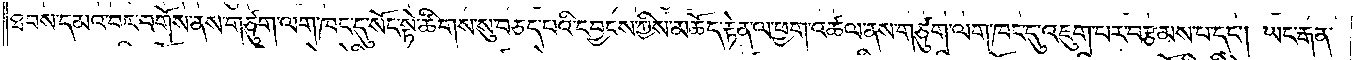ཐབས་དམའ་བར་བགོས་ནས་གཙུག་ལག་ཁང་དུ་སོང་སྟེ་ཚིགས་སུ་བཅད་པའི་དབྱངས་ཀྱིས་མཆོད་རྟེན་ལ་ཕྱག་འཚལ་ནས་གཙུག་ལག་ཁང་དུ་འཇུག་པར་བརྩམས་པ་དང༌། ཡང་རྒན་
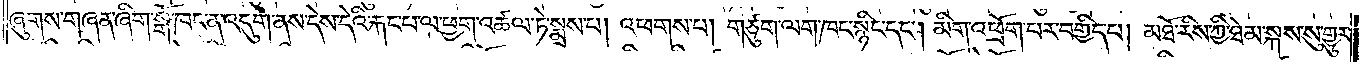ཞུགས་གཞན་ཞིག་སྒོ་ཁང་ན་འདུག་ནས་དེས་དེའི་རྐང་པ་ལ་ཕྱག་འཚལ་ཏེ་སྨྲས་པ། འཕགས་པ། གཙུག་ལག་ཁང་སྙིང་དང༌། མིག་འཕྲོག་པར་བགྱིད་པ། མཐོ་རིས་ཀྱི་ཐེམ་སྐས་སུ་གྱུར་
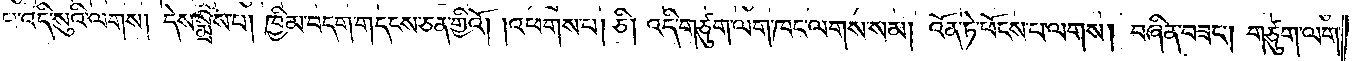པ་འདི་སུའི་ལགས། དེས་སྨྲས་པ། ཁྱིམ་བདག་གདངས་ཅན་གྱིའོ། །འཕགས་པ། ཅི། འདི་གཙུག་ལག་ཁང་ལགས་སམ། འོན་ཏེ་ཕོངས་པ་ལགས། བཞིན་བཟང༌། གཙུག་ལག་
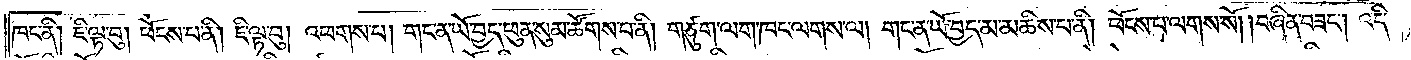ཁང་ནི། ཇི་ལྟ་བུ། ཕོངས་པ་ནི། ཇི་ལྟ་བུ། འཕགས་པ། གང་ན་ཡོ་བྱད་ཕུན་སུམ་ཚོགས་པ་ནི། གཙུག་ལག་ཁང་ལགས་ལ། གང་ན་ཡོ་བྱད་མ་མཆིས་པ་ནི། ཕོངས་པ་ལགས་སོ། །བཞིན་བཟང༌། འདི་
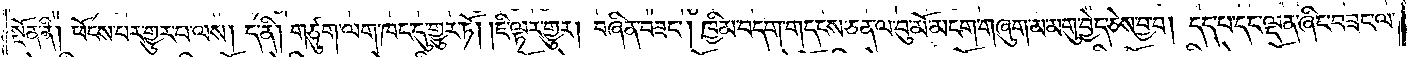སྔོན་ནི། ཕོངས་པར་གྱུར་པ་ལས། ད་ནི། གཙུག་ལག་ཁང་དུ་གྱུར་ཏོ། །ཇི་ལྟར་གྱུར། བཞིན་བཟང༌། ཁྱིམ་བདག་གདངས་ཅན་ལ་བུ་མོ་མངག་གཞུག་མ་མགུ་བྱེད་ཅེས་བྱ་བ། དད་པ་དང་ལྡན་ཞིང་བཟང་ལ་
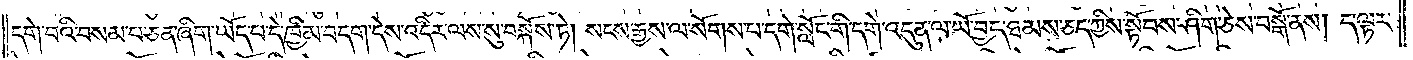དགེ་བའི་བསམ་པ་ཅན་ཞིག་ཡོད་པ་དེ་ཁྱིམ་བདག་དེས་འདིར་ལས་སུ་བསྐོས་ཏེ། སངས་རྒྱས་ལ་སོགས་པ་དགེ་སློང་གི་དགེ་འདུན་ལ་ཡོ་བྱད་ཐམས་ཅད་ཀྱིས་སྟོབས་ཤིག་ཅེས་བསྒོ་ནས། ད་ལྟར་
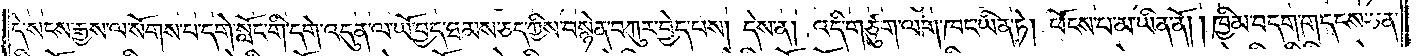དེ་སངས་རྒྱས་ལ་སོགས་པ་དགེ་སློང་གི་དགེ་འདུན་ལ་ཡོ་བྱད་ཐམས་ཅད་ཀྱིས་བསྙེན་བཀུར་བྱེད་པས། དེས་ན། འདི་གཙུག་ལག་ཁང་ཡིན་ཏེ། ཕོངས་པ་མ་ཡིན་ནོ། །ཁྱིམ་བདག་གདངས་ཅན་
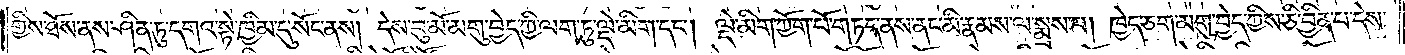གྱིས་ཐོས་ནས་ཤིན་ཏུ་དགའ་སྟེ་ཁྱིམ་དུ་སོང་ནས། དེས་བུ་མོ་མགུ་བྱེད་ཀྱི་ལག་ཏུ་ལྡེ་མིག་དང༌། ལྡེ་མིག་ཀྱོག་པོ་གཏད་ནས་ནང་མི་རྣམས་ལ་སྨྲས་པ། ཁྱེད་ཅག་མགུ་བྱེད་ཀྱིས་ཅི་བྱིན་པ་དེས་
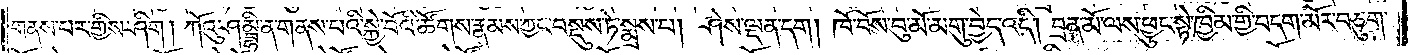གནས་པར་གྱིས་ཤིག །ཀོའུ་ཤམྦྷི་ན་གནས་པའི་སྐྱེ་བོའི་ཚོགས་རྣམས་ཀྱང་བསྡུས་ཏེ་སྨྲས་པ། ཤེས་ལྡན་དག །ཁོ་བོས་བུ་མོ་མགུ་བྱེད་འདི། བྲན་མོ་ལས་ཕྱུང་སྟེ་ཁྱིམ་གྱི་བདག་མོར་བཅུག་
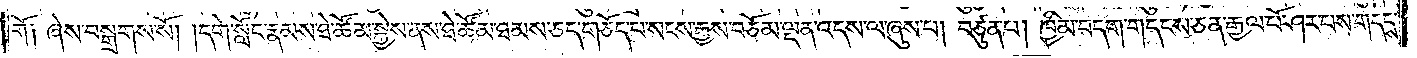གོ༑ ཞེས་བསྒྲགས་སོ། །དགེ་སློང་རྣམས་ཐེ་ཚོམ་སྐྱེས་ནས་ཐེ་ཚོམ་ཐམས་ཅད་གཅོད་པ་སངས་རྒྱས་བཅོམ་ལྡན་འདས་ལ་ཞུས་པ། བཙུན་པ། ཁྱིམ་བདག་གདངས་ཅན་རྒྱལ་པོ་ཤར་བས་གདངས་
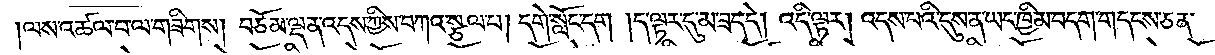།ལས་འཚལ་བ་ལ་གཟིགས། བཅོམ་ལྡན་འདས་ཀྱིས་བཀའ་སྩལ་པ། དགེ་སློང་དག །ད་ལྟར་དུ་མ་ཟད་དེ། འདི་ལྟར། འདས་པའི་དུས་ན་ཡང་ཁྱིམ་བདག་གདངས་ཅན་
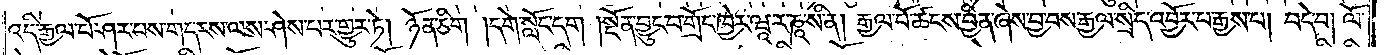འདི་རྒྱལ་པོ་ཤར་པས་གདངས་ལས་ཤེས་པར་གྱུར་ཏེ། ཉོན་ཅིག །དགེ་སློང་དག །སྔོན་བྱུང་བ་གྲོང་ཁྱེར་ཝཱ་ར་ཎཱ་སི་ན། རྒྱལ་པོ་ཚངས་བྱིན་ཞེས་བྱ་བས་རྒྱལ་སྲིད་འབྱོར་པ་རྒྱས་པ། བདེ་བ། ལོ་
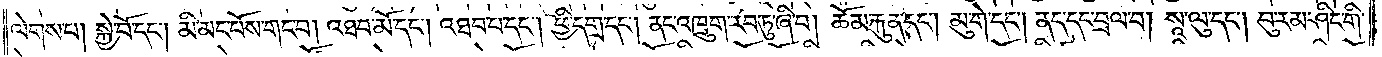ལེགས་པ། སྐྱེ་བོ་དང༌། མི་མང་པོས་གང་བ། འཐབ་མོ་དང༌། འཐབ་པ་དང༌། ཕྱི་དགྲ་དང༌། ནང་འཁྲུག་རབ་ཏུ་ཞི་བ། ཆོམ་རྐུན་དང༌། མུ་གེ་དང༌། ནད་དང་བྲལ་བ། སཱ་ལུ་དང༌། བུ་རམ་ཤིང་གི་
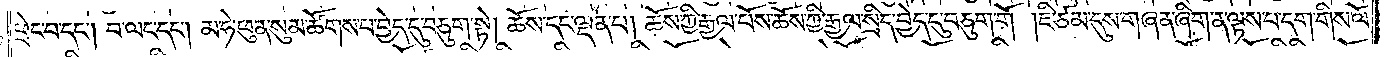ཕྲེང་བ་དང༌། བ་ལང་དང༌། མ་ཧེ་ཕུན་སུམ་ཚོགས་པ་བྱེད་དུ་བཅུག་སྟེ། ཆོས་དང་ལྡན་པ། ཆོས་ཀྱི་རྒྱལ་པོས་ཆོས་ཀྱི་རྒྱལ་སྲིད་བྱེད་དུ་བཅུག་གོ །ཇི་ཙམ་དུས་གཞན་ཞིག་ན་ལྟས་པ་དག་གིས་ལོ་
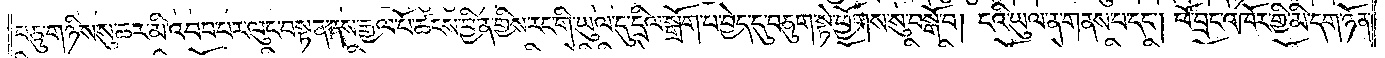བཅུ་གཉིས་སུ་ཆར་མི་འབབ་པར་ལུང་བསྟན་ནས་རྒྱལ་པོ་ཚངས་བྱིན་གྱིས་རང་གི་ཡུལ་དུ་དྲིལ་སྒྲོག་པ་བྱེད་དུ་བཅུག་སྟེ་ཕྱོགས་སུ་བསྒོ་བ། ངའི་ཡུལ་ན་གནས་པ་དང༌། ཕོ་བྲང་འཁོར་གྱི་མི་དག་ཉོན་
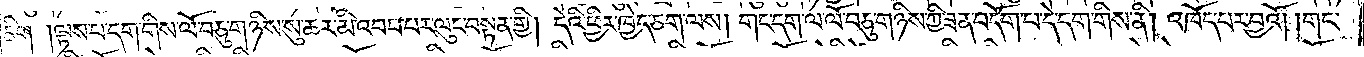ཅིག །ལྟས་པ་དག་གིས་ལོ་བཅུ་གཉིས་སུ་ཆར་མི་འབབ་པར་ལུང་བསྟན་གྱི། དེའི་ཕྱིར་ཁྱེད་ཅག་ལས། གང་དག་ལ་ལོ་བཅུ་གཉིས་ཀྱི་ཟན་བདོག་པ་དེ་དག་གིས་ནི། འཁོད་པར་བྱའོ། །གང་
